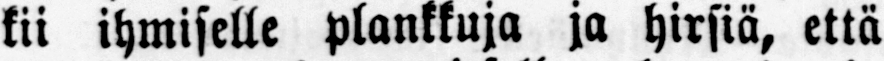kii ihmiselle plankkuja ja hirsiä, että
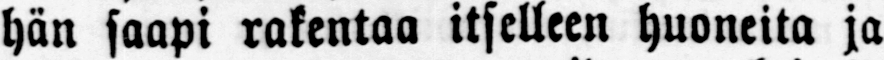hän saapi rakentaa itselleen huoneita ja
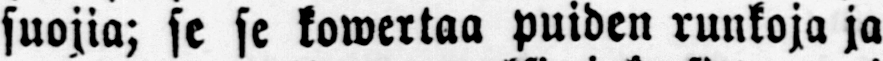suojia; se se kowertaa puiden runkoja ja
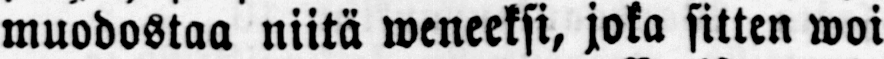muodostaa niitä weneeksi, joka sitten woi
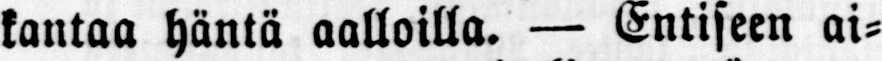kantaa häntä aalloilla. — Entiseen ai-
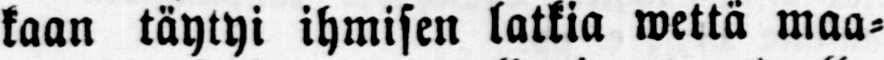kaan täytyi ihmisen latkia wettä maa-
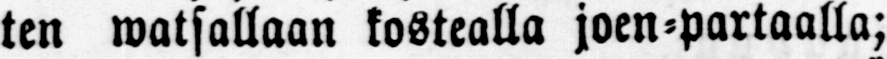ten waisallaan kostealla joen-partaalla;
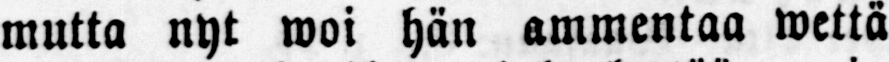mutta nyt woi hän ammentaa wettä
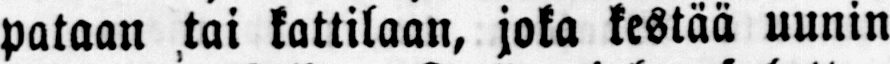pataan tai kattilaan, joka kestää uunin
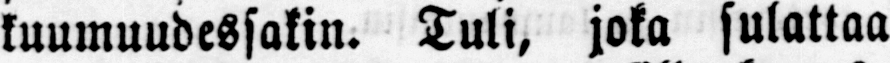kuumuudessakin. Tuli, joka sulattaa
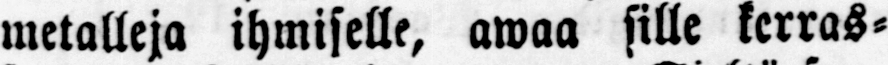metalleja ihmiselle, awaa sille kerras-
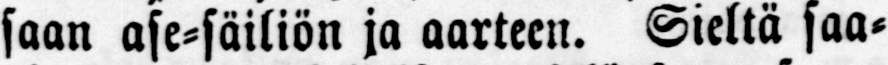saan ase-säiliön ja aarteen. Sieltä saa-
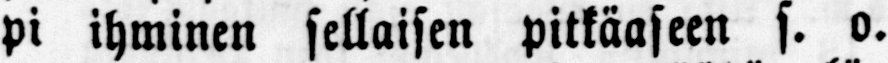pi ihminen sellaisen pitkäaseen s. o.
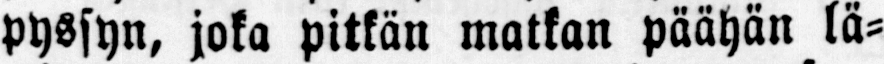Pyssyn, joka pitkän matkan päähän lä-
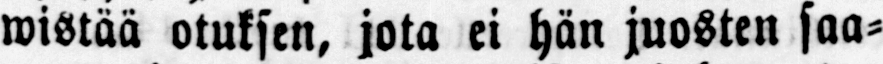wistää otuksen, jota ei hän juosten saa-
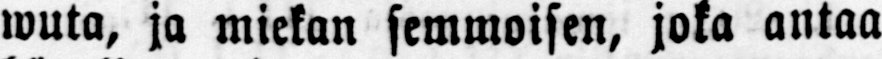wuta, ja miekan semmoisen, joka antaa
